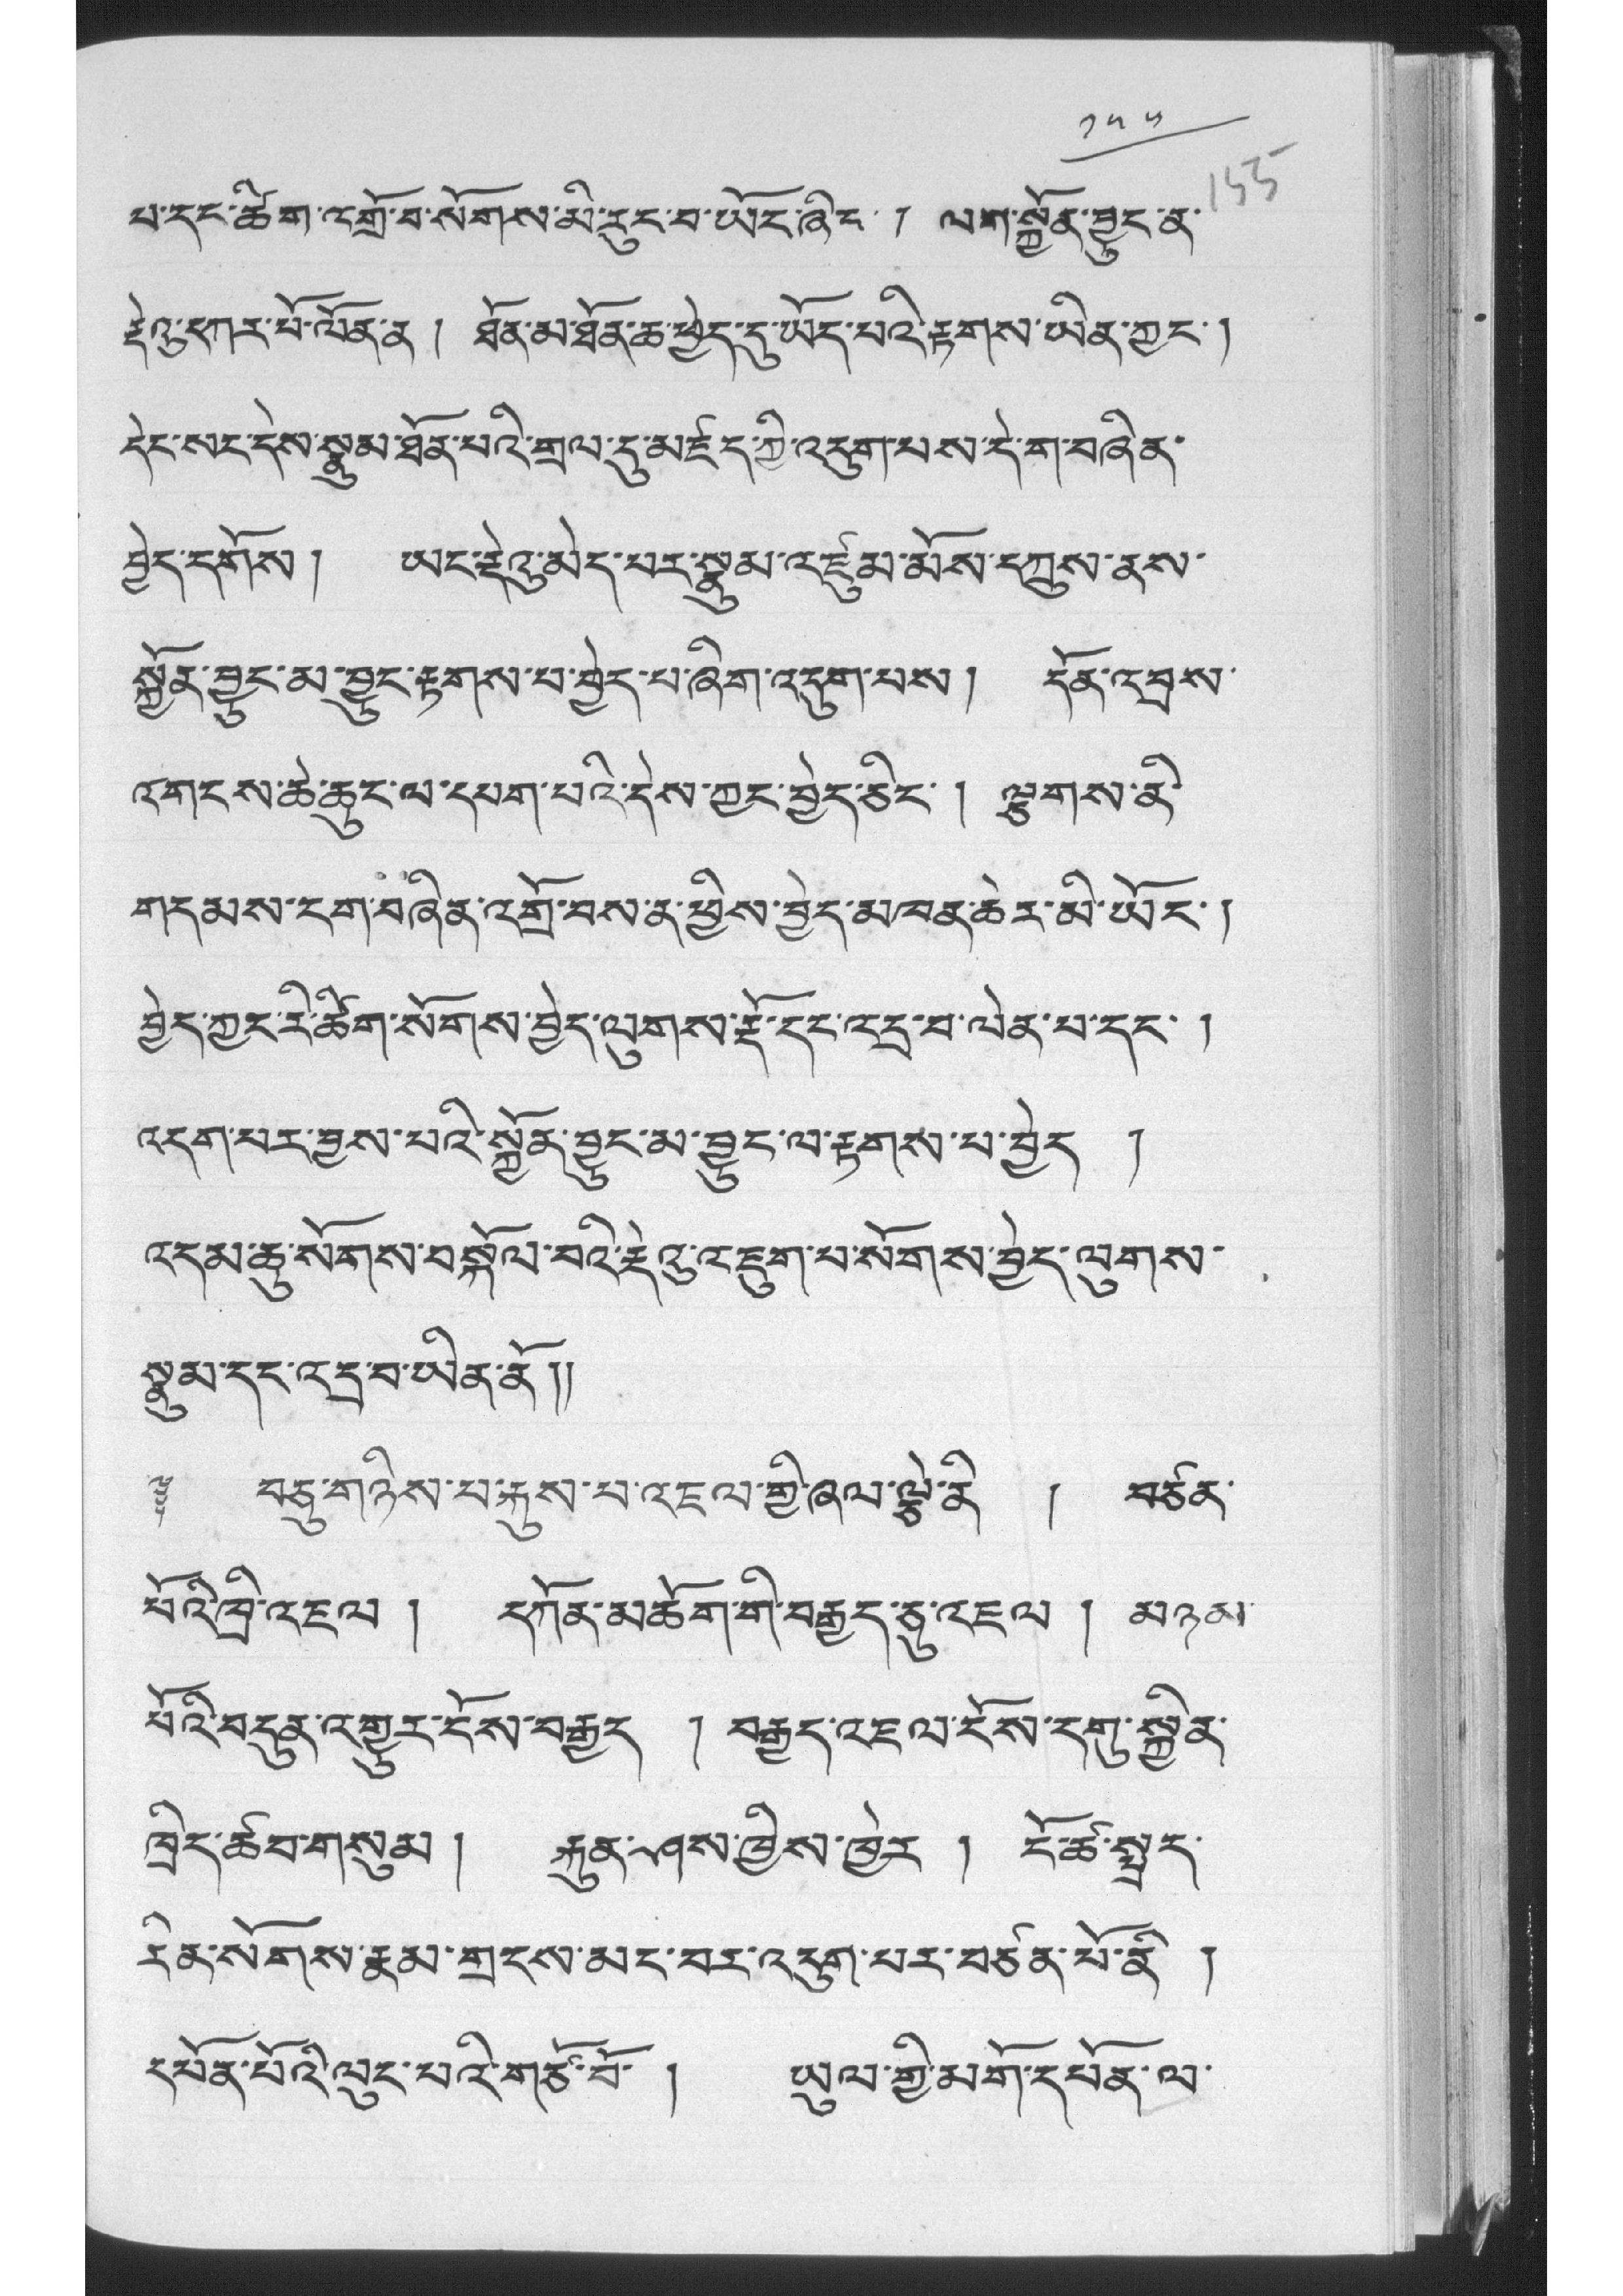༡༥༥
པ་དང་ཚིག་འགྲོ་བ་སོགས་མི་རུང་བ་ཡོང་ཞིང་། ལག་སྐྱོན་བྱུང་ན་
རྡེའུ་དཀར་པོ་ལོན་ན ། ཐོན་མ་ཐོན་ཆ་ཕྱེད་དུ་ཡོད་པའི་རྟགས་ཡིན་ཀྱང་།
དེང་སང་དུས་སྣུམ་ཐོན་པའི་གྲལ་དུ་མཛད་ཀྱི་འདུག་པས་དེ་ག་བཞིམ་
བྱེད་དགོས། ཡང་རྡེའུ་མེད་པར་སྣུམ་འཛུམ་མོས་དཀྲུས་ནས་
སྐྱོན་བྱུང་མ་བྱུང་རྟགས་པ་བྱེད་པ་ཞིག་འདུག་པས། དོན་འབྲས་
འགངས་ཆེ་ཆུང་ལ་དཔག་པའི་དེས་ཀྱང་བྱེད་ཅིང་། ལྕགས་ན་
གདམས་ངག་བཞིན་འགྲོ་བས་ན་ཕྱིས་བྱེད་མཁན་ཆེར་མི་ཡོང་།
བྱེད་ཀྱང་རི་ཚིག་སོགས་བྱེད་ལུགས་རྡོ་དང་འདྲ་བ་ལེན་པ་དང་ །
འདུག་པར་བྱས་པའི་སྐྱོན་བྱུང་མ་བྱུང་ལ་རྟགས་པ་བྱེད །
འདམ་ཆུ་སོགས་བསྐོལ་བའི་རྡེའུ་འཇུག་པ་སོགས་བྱེད་ལུགས་
སྣུམ་དང་འདྲ་བ་ཡིན་ནོ།།
༈ བཅུ་གཉིས་པ་རྐུས་པ་འཇལ་གྱི་ཞལ་ལྕེ་ནི །
པོའི་ཁྲི་འཇལ ། དཀོན་མཆོག་གི་བརྒྱད་དུ་འཇལ ། མཉམ་
པོའི་བདུན་འགྱུར་ངོས་བརྒྱད ། བརྒྱད་འཇལ་ངོས་དགུ་སྐྱིན་
ཁྲིད་ཚབ་གསུམ། རྐུན་ཤས་ཁྱིས་ཁྱེར ། ངོ་ཚ་སྤྲོད་
རིན་སོགས་རྣམ་གྲངས་མང་བར་འདུག་པར་བཙན་པོ་ནི །
དཔོན་པོའི་ལུང་པའི་གཙོ་བོ་ ། ཡུལ་གྱི་མིག་དཔོན་ལ་
